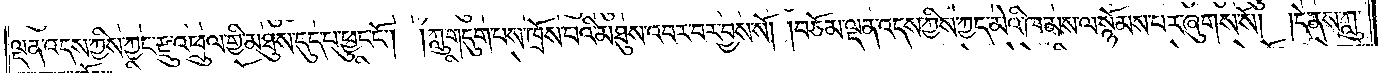ལྡན་འདས་ཀྱིས་ཀྱང་རྫུ་འཕྲུལ་གྱི་མཐུས་དུད་པ་ཕྱུང་ངོ༌། །ཀླུ་གདུག་པས་ཁྲོས་པའི་མཐུས་འབར་བར་བྱས་སོ། །བཅོམ་ལྡན་འདས་ཀྱིས་ཀྱང་མེའི་ཁམས་ལ་སྙོམས་པར་ཞུགས་སོ། །དེ་ནས་ཀླུ་
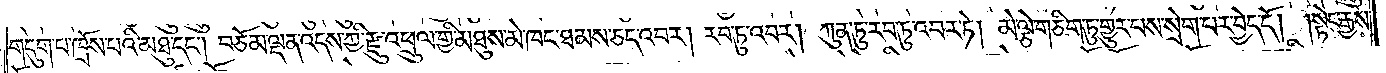གདུག་པ་ཁྲོས་པའི་མཐུ་དང༌། བཅོམ་ལྡན་འདས་ཀྱི་རྫུ་འཕྲུལ་གྱི་མཐུས་མེ་ཁང་ཐམས་ཅད་འབར། རབ་ཏུ་འབར། ཀུན་ཏུ་རབ་ཏུ་འབར་ཏེ། མེ་ལྕེ་གཅིག་ཏུ་གྱུར་པས་སྲེག་པར་བྱེད་དོ། །སྟེང་རྒྱས་
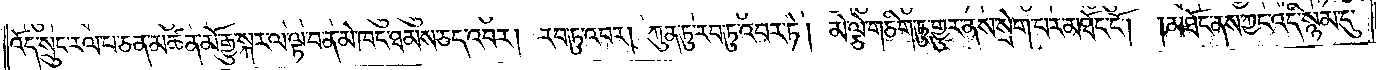འོད་སྲུང་རལ་པ་ཅན་མཚན་མོ་རྒྱུ་སྐར་ལ་ལྟ་བ་ན་མེ་ཁང་ཐམས་ཅད་འབར། རབ་ཏུ་འབར། ཀུན་ཏུ་རབ་ཏུ་འབར་ཏེ། མེ་ལྕེ་གཅིག་ཏུ་གྱུར་ནས་སྲེག་པར་མཐོང་ངོ༌། །མཐོང་ནས་ཀྱང་འདི་སྙམ་དུ་
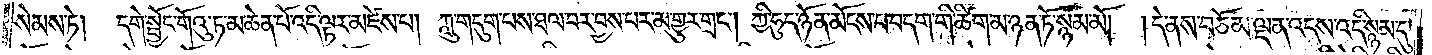སེམས་ཏེ།  དགེ་སྦྱོང་གོའུ་ཏ་མ་ཆེན་པོ་འདི་ལྟར་མཛེས་པ། ཀླུ་གདུག་པས་ཐལ་བར་བྱས་པར་མ་གྱུར་གྲང༌། ཀྱི་ཧུད་ཉོན་མོངས་པ་བདག་གི་ཚིག་མ་ཉན་ཏོ་སྙམ་མོ། །དེ་ནས་བཅོམ་ལྡན་འདས་འདི་སྙམ་དུ་
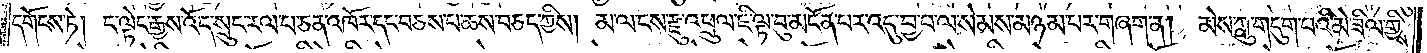དགོངས་ཏེ། ང་ལྟེང་རྒྱས་འོད་སྲུང་རལ་པ་ཅན་འཁོར་དང་བཅས་པ་ཆས་བཅད་ཀྱིས། མ་ལ་ངས་རྫུ་འཕྲུལ་ཇི་ལྟ་བུ་མངོན་པར་འདུ་བྱ་བ་ལ་སེམས་མཉམ་པར་གཞག་ན། མེས་ཀླུ་གདུག་པའི་མེ་ཟིལ་གྱིས་
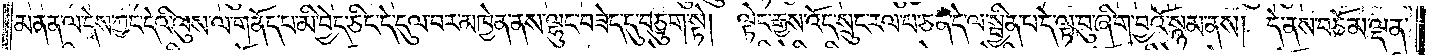མནན་ལ་དེས་ཀྱང་དེའི་ལུས་ལ་གནོད་པ་མི་བྱེད་ཅིང་དེ་དུལ་བར་མཁྱེན་ནས་ལྷུང་བཟེད་དུ་བཅུག་སྟེ། ལྟེང་རྒྱས་འོད་སྲུང་རལ་པ་ཅན་དེ་ལ་སྦྱིན་པ་དེ་ལྟ་བུ་ཞིག་བྱའོ་སྙམ་ནས། དེ་ནས་བཅོམ་ལྡན་
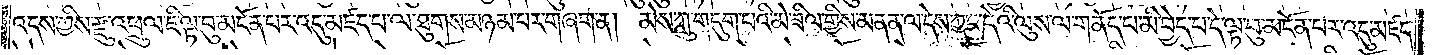འདས་ཀྱིས་རྫུ་འཕྲུལ་ཇི་ལྟ་བུ་མངོན་པར་འདུ་མཛད་པ་ལ་ཐུགས་མཉམ་པར་གཞག་ན། མེས་ཀླུ་གདུག་པའི་མེ་ཟིལ་གྱིས་མནན་ལ་དེས་ཀྱང་དེའི་ལུས་ལ་གནོད་པ་མི་བྱེད་པ་དེ་ལྟ་བུ་མངོན་པར་འདུ་མཛད་
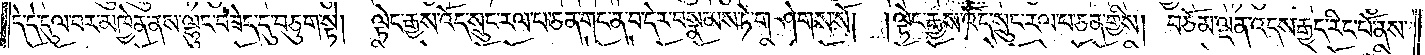དེ་དེ་དུལ་བར་མཁྱེན་ནས་ལྷུང་བཟེད་དུ་བཅུག་སྟེ། ལྟེང་རྒྱས་འོད་སྲུང་རལ་པ་ཅན་གང་ན་བ་དེར་བསྣམས་ཏེ་གཤེགས་སོ། །ལྟེང་རྒྱས་འོད་སྲུང་རལ་པ་ཅན་གྱིས། བཅོམ་ལྡན་འདས་རྒྱང་རིང་པོ་ནས་
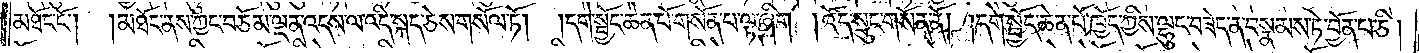མཐོང་ངོ༌། །མཐོང་ནས་ཀྱང་བཅོམ་ལྡན་འདས་ལ་འདི་སྐད་ཅེས་གསོལ་ཏོ། །དགེ་སྦྱོང་ཆེན་པོ་གསོན་པ་ལྟ་ཞིག །འོད་སྲུང་གསོན་ནོ། །དགེ་སྦྱོང་ཆེན་པོ་ཁྱོད་ཀྱིས་ལྷུང་བཟེད་ན་བསྣམས་ཏེ་བྱོན་པ་ཅི།
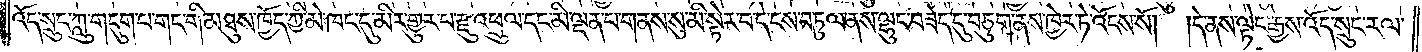འོད་སྲུང་ཀླུ་གདུག་པ་གང་གི་མཐུས་ཁྱོད་ཀྱི་མེ་ཁང་དུ་མིར་གྱུར་པ་རྫུ་འཕྲུལ་དང་མི་ལྡན་པ་གནས་སུ་མི་སྟེར་བ་དེ་ངས་བཏུལ་ནས་ལྷུང་བཟེད་དུ་བཅུག་ནས་ཁྱེར་ཏེ་འོངས་སོ། །དེ་ནས་ལྟེང་རྒྱས་འོད་སྲུང་རལ་
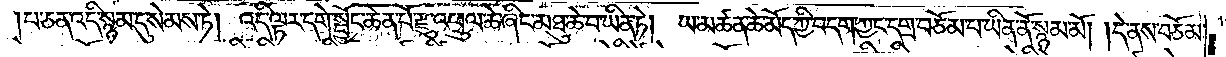པ་ཅན་འདི་སྙམ་དུ་སེམས་ཏེ། འདི་ལྟར་དགེ་སྦྱོང་ཆེན་པོ་རྫུ་འཕྲུལ་ཆེ་ཞིང་མཐུ་ཆེ་བ་ཡིན་ཏེ། ཡ་མཚན་ཆེ་མོད་ཀྱི་བདག་ཀྱང་དགྲ་བཅོམ་པ་ཡིན་ནོ་སྙམ་མོ། །དེ་ནས་བཅོམ་
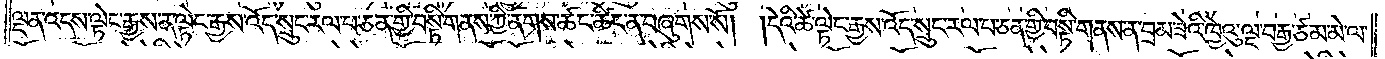ལྡན་འདས་ལྟེང་རྒྱས་ན་ལྟེང་རྒྱས་འོད་སྲུང་རལ་པ་ཅན་གྱི་བསྟི་གནས་ཀྱི་ནགས་ཚང་ཚིང་ན་བཞུགས་སོ། །དེའི་ཚེ་ལྟེང་རྒྱས་འོད་སྲུང་རལ་པ་ཅན་གྱི་བསྟི་གནས་ན་བྲམ་ཟེའི་ཁྱེའུ་ལྔ་བརྒྱ་ཙམ་མེ་ལ་
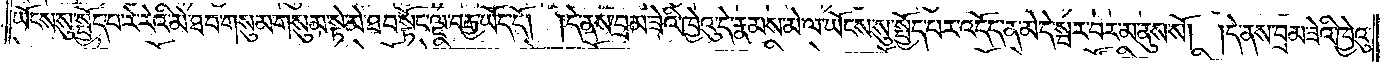ཡོངས་སུ་སྤྱོད་པ་རེ་རེའི་མེ་ཐབ་གསུམ་གསུམ་སྟེ་མེ་ཐབ་སྟོང་ལྔ་བརྒྱ་ཡོད་དོ། །དེ་ནས་བྲམ་ཟེའི་ཁྱེའུ་དེ་རྣམས་མེ་ལ་ཡོངས་སུ་སྤྱོད་པར་འདོད་ན་མེ་དེ་སྦར་བར་མ་ནུས་སོ། །དེ་ནས་བྲམ་ཟེའི་ཁྱེའུ་
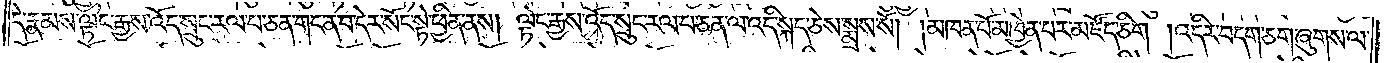དེ་རྣམས་ལྟེང་རྒྱས་འོད་སྲུང་རལ་པ་ཅན་གང་ན་བ་དེར་སོང་སྟེ་ཕྱིན་ནས། ལྟེང་རྒྱས་འོད་སྲུང་རལ་པ་ཅན་ལ་འདི་སྐད་ཅེས་སྨྲས་སོ། །མཁན་པོ་མཁྱེན་པར་མཛོད་ཅིག །འདིར་བདག་ཅག་ཞུགས་ལ་
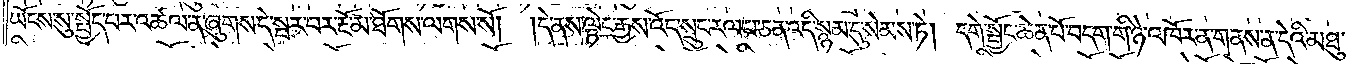ཡོངས་སུ་སྤྱོད་པར་འཚལ་ན་ཞུགས་དེ་སྦར་བར་རྔོ་མ་ཐོགས་ལགས་སོ། །དེ་ནས་ལྟེང་རྒྱས་འོད་སྲུང་རལ་པ་ཅན་འདི་སྙམ་དུ་སེམས་ཏེ། དགེ་སྦྱོང་ཆེན་པོ་བདག་གི་ཉེ་འཁོར་ན་གནས་ན་དེའི་མཐུ་
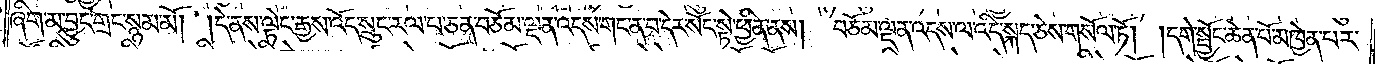ཞིག་མ་བྱུང་གྲང་སྙམ་མོ། །དེ་ནས་ལྟེང་རྒྱས་འོད་སྲུང་རལ་པ་ཅན་བཅོམ་ལྡན་འདས་གང་ན་བ་དེར་སོང་སྟེ་ཕྱིན་ནས། བཅོམ་ལྡན་འདས་ལ་འདི་སྐད་ཅེས་གསོལ་ཏོ། །དགེ་སྦྱོང་ཆེན་པོ་མཁྱེན་པར་
